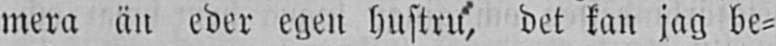mera än eder egen hustru, det kan jag be-
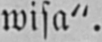wisa".
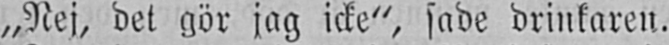„Nej, det gör jag icke", sade drinkaren.
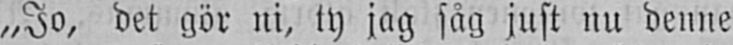„Jo, det gör ni, ty jag såg just nu denne
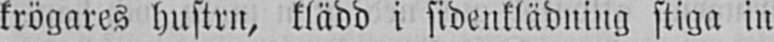krögares hustru, klädd i sidenklädning stiga in
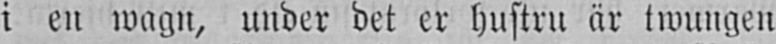i en wagn, under det er hustru är twungen
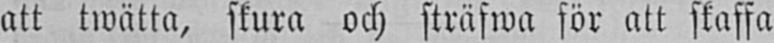att twätta, skura och sträfwa för att skaffa
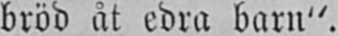bröd åt edra barn".
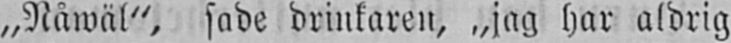„Nåwäl", sade drinkaren, „jag har aldrig
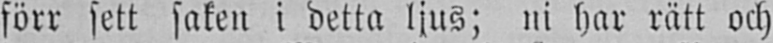förr sett saken i detta ljus; ni har rätt och
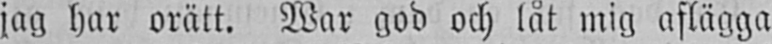jag har orätt. War god och låt mig aflägga
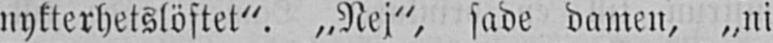nykterhetslöftet". „Nej", sade damen, „ni
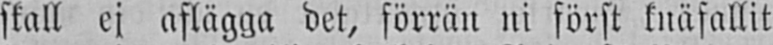skall ej aflägga det, förrän ni först knäfallit
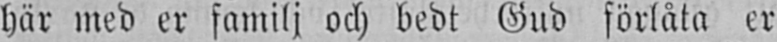här med er familj och bedt Gud förlåta er
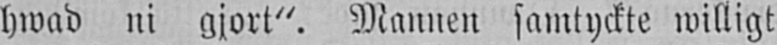hwad ni gjort". Mannen samtyckte willigt
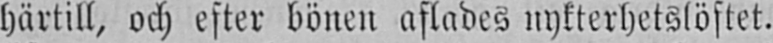härtill, och efter bönen aflades nykterhetslöftet.
